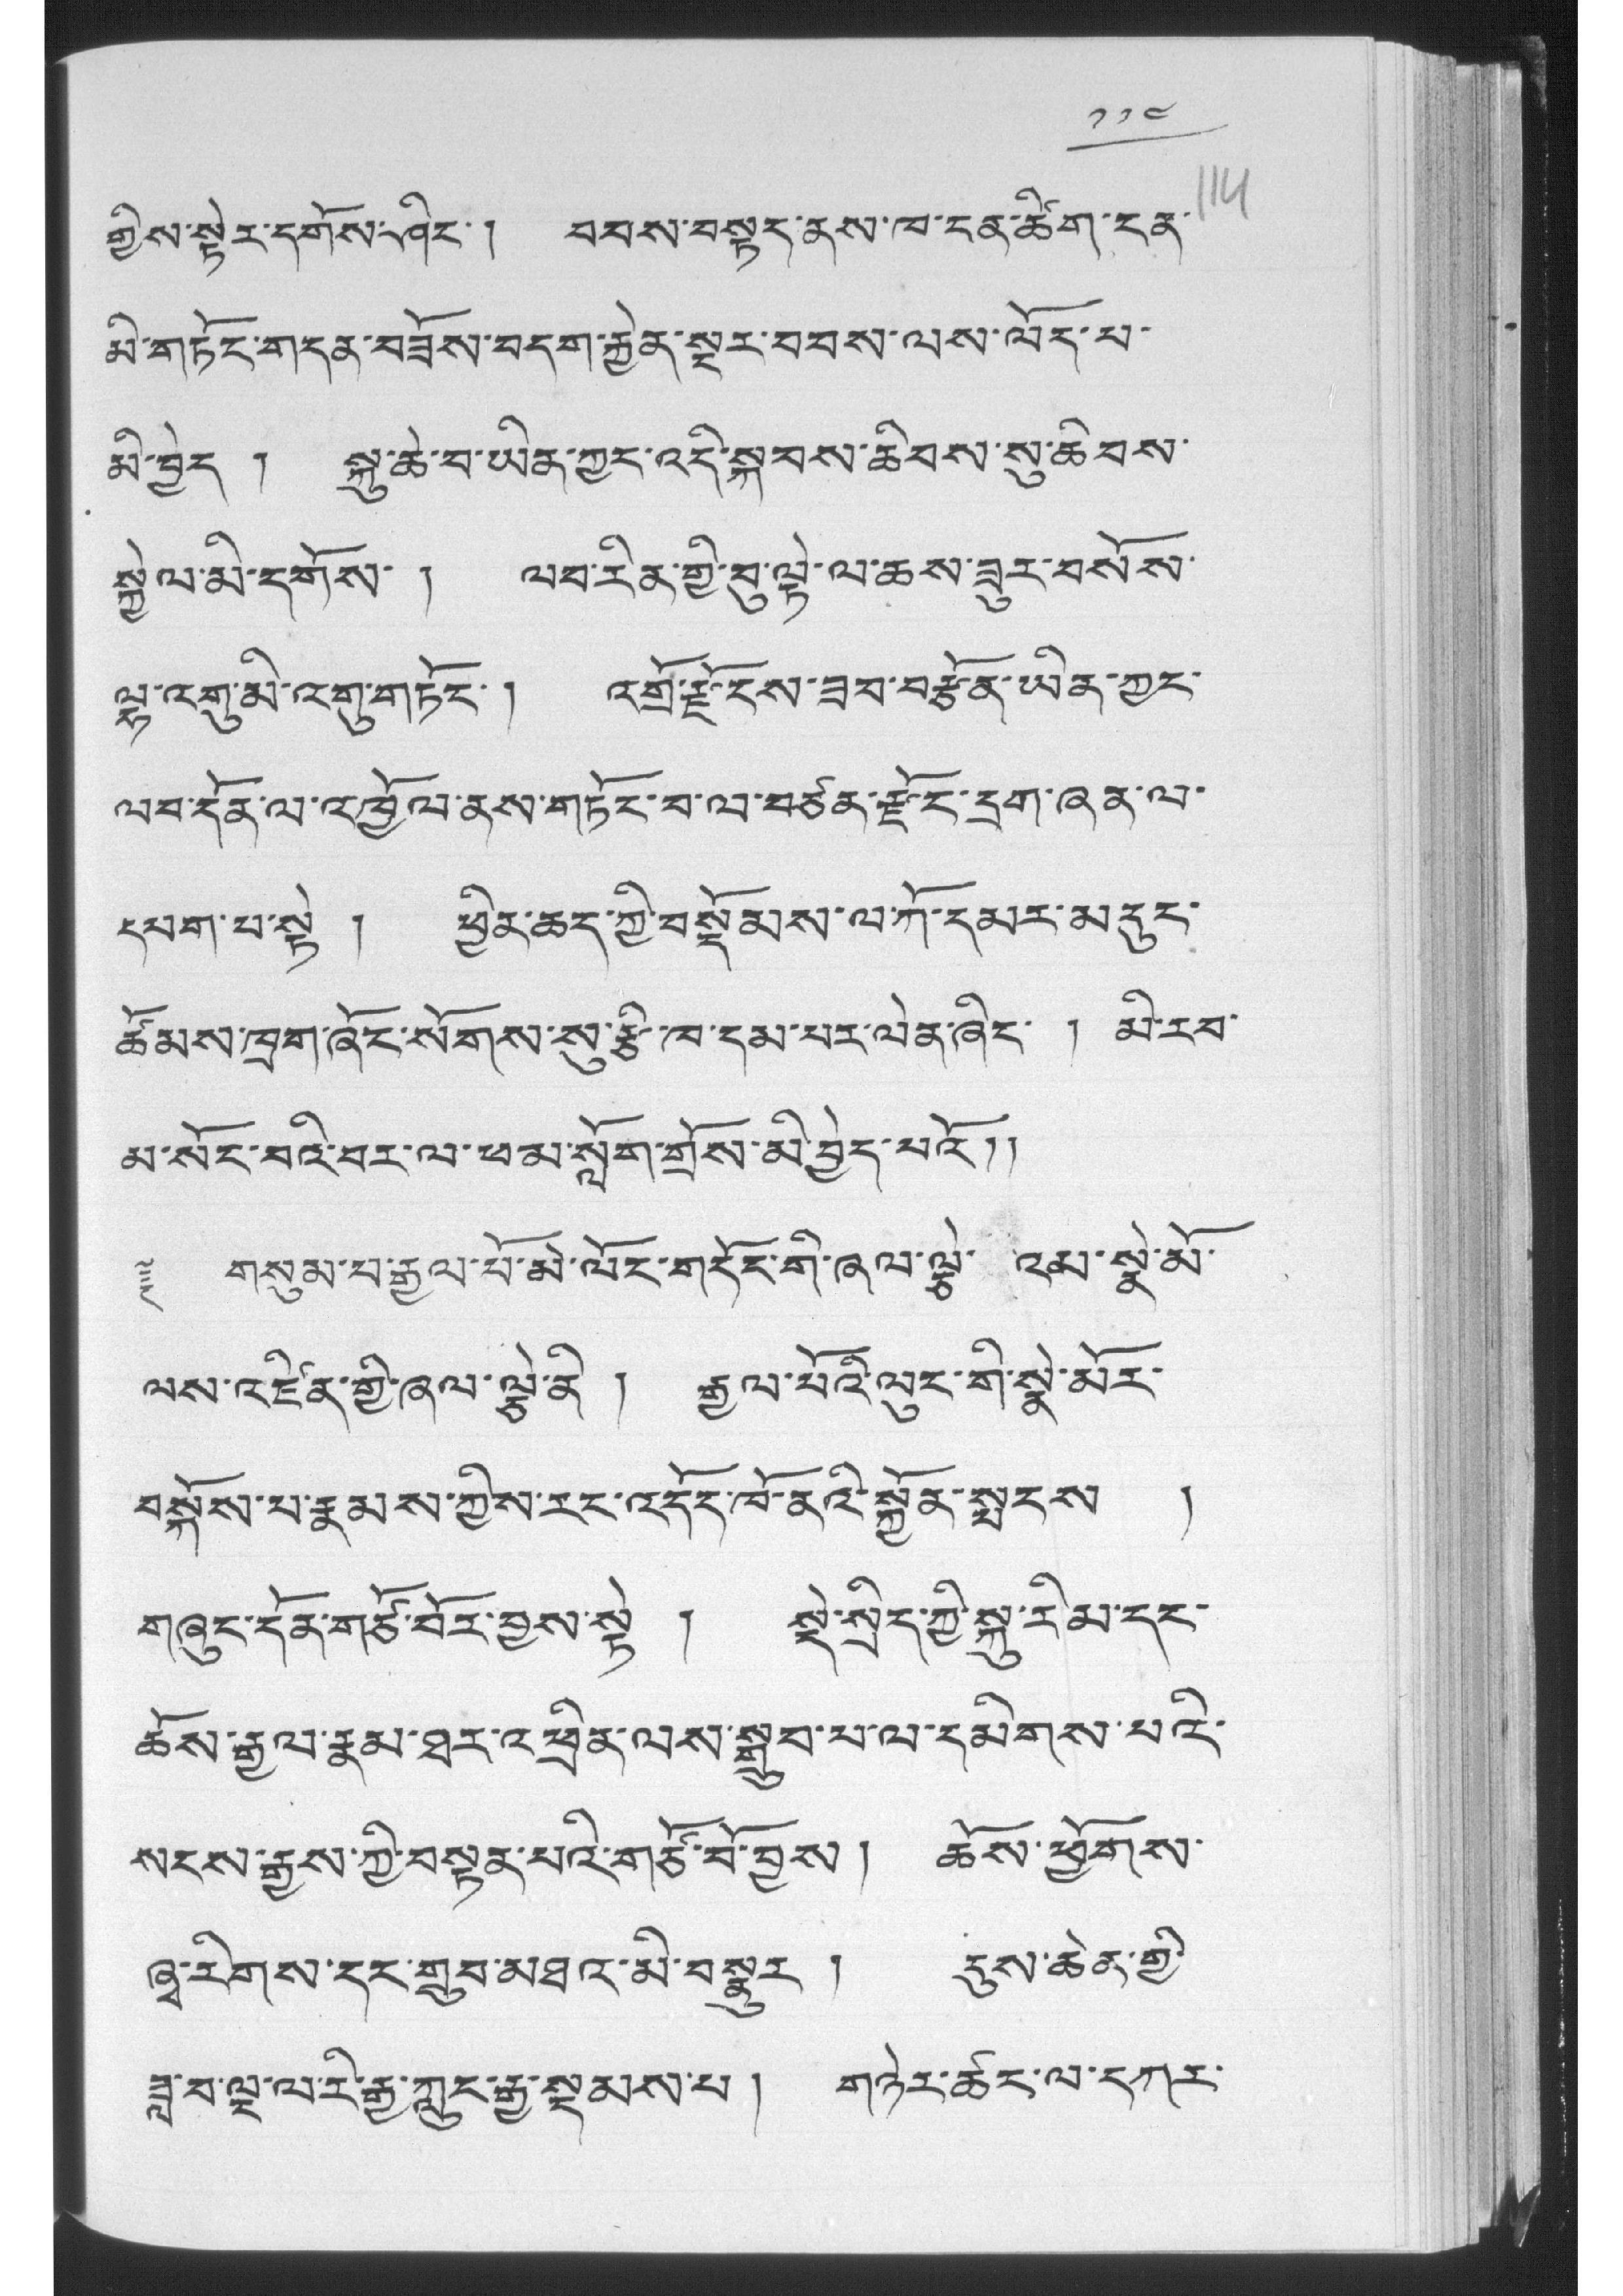༡༡༤
གྱིས་སྟེར་དགོས་ཤིང་། བབས་བསྟད་ནས་ཁ་ངན་ཚིག་ངན་
མི་གཏོང་གདན་བཟོས་བདག་རྐྱེན་སྔར་བབས་ལས་ལོད་པ་
མི་བྱེད ། སྐུ་ཆེ་བ་ཡིན་ཀྱང་འདི་སྐབས་ཆིབས་སུ་ཆིབས་
སྐྱེལ་མི་དགོས་ ། ལབ་རིན་གྱི་བུ་ལྟེ་ལ་ཆས་ཟུར་བསོས་
ལྷ་འགུ་མི་འགུ་གཏོང་ ། འགྲོ་རྫོངས་ཟབ་བརྩོན་ཡིན་ཀྱང་
ལབ་དོན་ལ་འཁྱོལ་ནས་གཏོང་བ་ལ་བཙན་རྫོང་དྲག་ཞན་ལ་
དམག་པ་སྟེ ། ཕྱིན་ཆད་ཀྱི་བསྡོམས་ལ་ཀོ་དམར་མདུང་
ཚོམས་ཁྲག་ཞོང་སོགས་སུ་རྩི་ཁ་དམ་པར་ལེན་ཞིང་ ། མི་རབ་
མ་སོང་བའི་བར་ལ་ཕམ་སློག་གྲོས་མི་བྱེད་པའོ།།
༈ གསུམ་བརྒྱལ་པོ་མེ་ལོང་གདོང་གི་ཞལ་ལྕེ་ འམ་སྣེ་མོ་
ལས་འཛིན་གྱི་ཞལ་ལྕེ་ནི ། རྒྱལ་པོའི་ལུང་གི་སྣེ་མོར་
བསྐོས་པ་རྣམས་ཀྱིས་རང་འདོད་ཁོ་ནོའི་སྐྱོན་སྤངས །
གཞུང་དོན་གཙོ་བོར་བྱས་སྟེ ། སྡེ་སྲིད་ཀྱི་སྐུ་རིམ་དང་
ཆོས་རྒྱལ་རྣམ་ཐར་འཕྲིན་ལས་སྒྲུབ་པ་ལ་དམིགས་པའི་
སངས་རྒྱས་ཀྱི་བསྟན་པའི་གཙོ་བོ་བྱས། ཆོས་ཕྱོགས་
ཞྭ་རིགས་དང་གྲུབ་མཐའ་མི་བསྣུར ། དུས་ཆེན་གྱི་
ཟླ་བ་ལྔ་ལ་རི་རྒྱ་ཀླུང་རྒྱུ་སྡུམས་པ། གཉེར་ཚར་ལ་དཀར་
